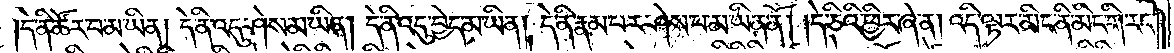དེ་ནི་ཚོར་བ་མ་ཡིན། དེ་ནི་འདུ་ཤེས་མ་ཡིན། དེ་ནི་འདུ་བྱེད་མ་ཡིན། དེ་ནི་རྣམ་པར་ཤེས་པ་མ་ཡིན་ནོ། །དེ་ཅིའི་ཕྱིར་ཞེ་ན། འདི་ལྟར་མིང་ནི་མིང་གི་རང་
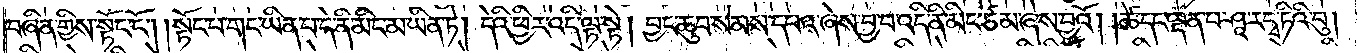བཞིན་གྱིས་སྟོང་ངོ༌། །སྟོང་པ་གང་ཡིན་པ་དེ་ནི་མིང་མ་ཡིན་ཏེ། དེའི་ཕྱིར་འདི་ལྟ་སྟེ། བྱང་ཆུབ་སེམས་དཔའ་ཞེས་བྱ་བ་འདི་ནི་མིང་ཙམ་ཞེས་བྱའོ། །ཚེ་དང་ལྡན་པ་ཤཱ་ར་དྭ་ཏིའི་བུ་
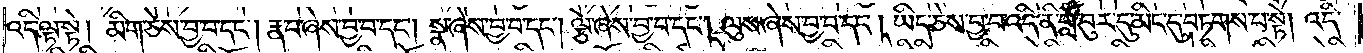འདི་ལྟ་སྟེ། མིག་ཅེས་བྱ་བ་དང༌། རྣ་བ་ཞེས་བྱ་བ་དང༌། སྣ་ཞེས་བྱ་བ་དང༌། ལྕེ་ཞེས་བྱ་བ་དང༌། ལུས་ཞེས་བྱ་བ་དང༌། ཡིད་ཅེས་བྱ་བ་འདི་ནི་གློ་བུར་དུ་མིང་དུ་བཏགས་པ་སྟེ། འདི་
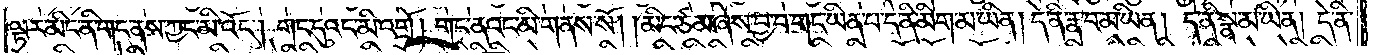ལྟར་མིང་ནི་གང་ནས་ཀྱང་མི་འོང༌། གང་དུའང་མི་འགྲོ་གང་ནའང་མི་གནས་སོ། །མིང་ཙམ་ཞེས་བྱ་བ་གང་ཡིན་པ་དེ་ནི་མིག་མ་ཡིན། དེ་ནི་རྣ་བ་མ་ཡིན། དེ་ནི་སྣ་མ་ཡིན། དེ་ནི་
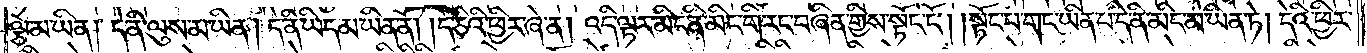ལྕེ་མ་ཡིན། དེ་ནི་ལུས་མ་ཡིན། དེ་ནི་ཡིད་མ་ཡིན་ནོ། །དེ་ཅིའི་ཕྱིར་ཞེ་ན། འདི་ལྟར་མིང་ནི་མིང་གི་རང་བཞིན་གྱིས་སྟོང་ངོ༌། །སྟོང་པ་གང་ཡིན་པ་དེ་ནི་མིང་མ་ཡིན་ཏེ། དེའི་ཕྱིར་
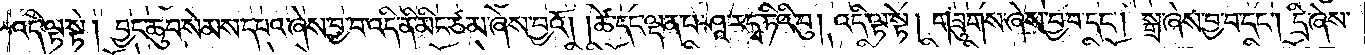འདི་ལྟ་སྟེ། བྱང་ཆུབ་སེམས་དཔའ་ཞེས་བྱ་བ་འདི་ནི་མིང་ཙམ་ཞེས་བྱའོ། །ཚེ་དང་ལྡན་པ་ཤཱ་ར་དྭ་ཏིའི་བུ། འདི་ལྟ་སྟེ། གཟུགས་ཞེས་བྱ་བ་དང༌། སྒྲ་ཞེས་བྱ་བ་དང༌། དྲི་ཞེས་
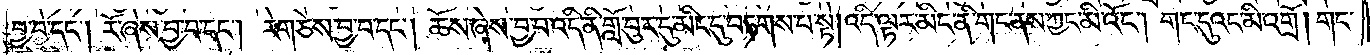བྱ་བ་དང༌། རོ་ཞེས་བྱ་བ་དང༌། རེག་ཅེས་བྱ་བ་དང༌། ཆོས་ཞེས་བྱ་བ་འདི་ནི་གློ་བུར་དུ་མིང་དུ་བཏགས་པ་སྟེ། འདི་ལྟར་མིང་ནི་གང་ནས་ཀྱང་མི་འོང༌། གང་དུའང་མི་འགྲོ། གང་
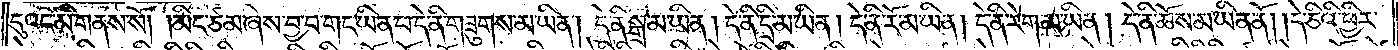དུའང་མི་གནས་སོ། །མིང་ཙམ་ཞེས་བྱ་བ་གང་ཡིན་པ་དེ་ནི་གཟུགས་མ་ཡིན། དེ་ནི་སྒྲ་མ་ཡིན། དེ་ནི་དྲི་མ་ཡིན། དེ་ནི་རོ་མ་ཡིན། དེ་ནི་རེག་མ་ཡིན། དེ་ནི་ཆོས་མ་ཡིན་ནོ། །དེ་ཅིའི་ཕྱིར་
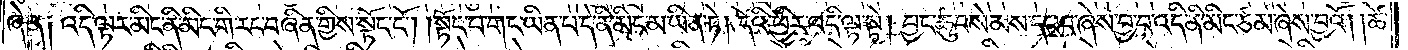ཞེ་ན། འདི་ལྟར་མིང་ནི་མིང་གི་རང་བཞིན་གྱིས་སྟོང་ངོ༌། །སྟོང་པ་གང་ཡིན་པ་དེ་ནི་མིང་མ་ཡིན་ཏེ། དེའི་ཕྱིར་འདི་ལྟ་སྟེ། བྱང་ཆུབ་སེམས་དཔའ་ཞེས་བྱ་བ་འདི་ནི་མིང་ཙམ་ཞེས་བྱའོ། །ཚེ་
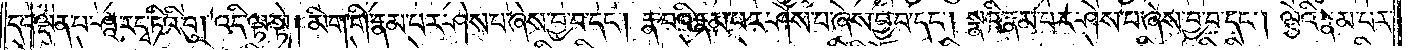དང་ལྡན་པ་ཤཱ་ར་དྭ་ཏིའི་བུ། འདི་ལྟ་སྟེ། མིག་གི་རྣམ་པར་ཤེས་པ་ཞེས་བྱ་བ་དང༌། རྣ་བའི་རྣམ་པར་ཤེས་པ་ཞེས་བྱ་བ་དང༌། སྣའི་རྣམ་པར་ཤེས་པ་ཞེས་བྱ་བ་དང༌། ལྕེའི་རྣམ་པར་
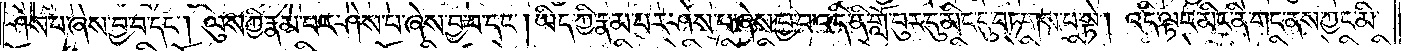ཤེས་པ་ཞེས་བྱ་བ་དང༌། ལུས་ཀྱི་རྣམ་པར་ཤེས་པ་ཞེས་བྱ་བ་དང༌། ཡིད་ཀྱི་རྣམ་པར་ཤེས་པ་ཞེས་བྱ་བ་འདི་ནི་གློ་བུར་དུ་མིང་དུ་བཏགས་པ་སྟེ། འདི་ལྟར་མིང་ནི་གང་ནས་ཀྱང་མི་
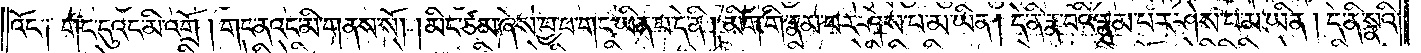འོང༌། གང་དུའང་མི་འགྲོ། གང་ནའང་མི་གནས་སོ། །མིང་ཙམ་ཞེས་བྱ་བ་གང་ཡིན་པ་དེ་ནི། མིག་གི་རྣམ་པར་ཤེས་པ་མ་ཡིན། དེ་ནི་རྣ་བའི་རྣམ་པར་ཤེས་པ་མ་ཡིན། དེ་ནི་སྣའི་
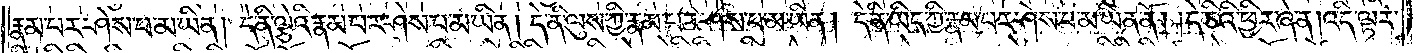རྣམ་པར་ཤེས་པ་མ་ཡིན། དེ་ནི་ལྕེའི་རྣམ་པར་ཤེས་པ་མ་ཡིན། དེ་ནི་ལུས་ཀྱི་རྣམ་པར་ཤེས་པ་མ་ཡིན། དེ་ནི་ཡིད་ཀྱི་རྣམ་པར་ཤེས་པ་མ་ཡིན་ནོ། །དེ་ཅིའི་ཕྱིར་ཞེ་ན། འདི་ལྟར་
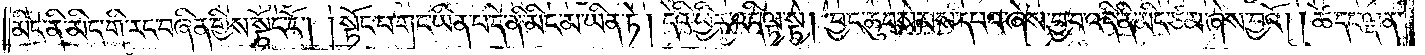མིང་ནི་མིང་གི་རང་བཞིན་གྱིས་སྟོང་ངོ༌། །སྟོང་པ་གང་ཡིན་པ་དེ་ནི་མིང་མ་ཡིན་ཏེ། དེའི་ཕྱིར་འདི་ལྟ་སྟེ། བྱང་ཆུབ་སེམས་དཔའ་ཞེས་བྱ་བ་འདི་ནི་མིང་ཙམ་ཞེས་བྱའོ། །ཚེ་དང་ལྡན་
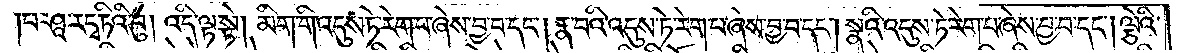པ་ཤཱ་ར་དྭ་ཏིའི་བུ། འདི་ལྟ་སྟེ། མིག་གི་འདུས་ཏེ་རེག་པ་ཞེས་བྱ་བ་དང༌། རྣ་བའི་འདུས་ཏེ་རེག་པ་ཞེས་བྱ་བ་དང༌། སྣའི་འདུས་ཏེ་རེག་པ་ཞེས་བྱ་བ་དང༌། ལྕེའི་
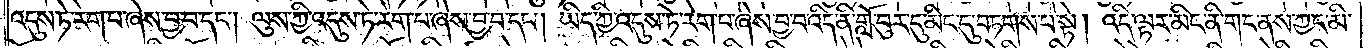འདུས་ཏེ་རེག་པ་ཞེས་བྱ་བ་དང༌། ལུས་ཀྱི་འདུས་ཏེ་རེག་པ་ཞེས་བྱ་བ་དང༌། ཡིད་ཀྱི་འདུས་ཏེ་རེག་པ་ཞེས་བྱ་བ་འདི་ནི་གློ་བུར་དུ་མིང་དུ་བཏགས་པ་སྟེ། འདི་ལྟར་མིང་ནི་གང་ནས་ཀྱང་མི་
